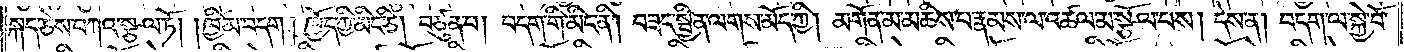སྐད་ཅེས་བཀའ་སྩལ་ཏོ། །ཁྱིམ་བདག། ཁྱོད་ཀྱི་མིང་ཅི། བཙུན་པ། བདག་གི་མིང་ནི། བཟང་སྦྱིན་ལགས་མོད་ཀྱི། མགོན་མ་མཆིས་པ་རྣམས་ལ་འཚལ་མ་སྩོལ་པས། དེས་ན། བདག་ལ་སྐྱེ་བོ་
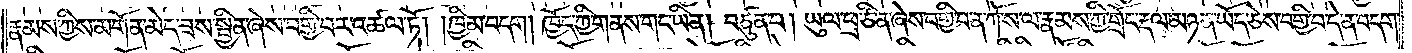རྣམས་ཀྱིས་མགོན་མེད་ཟས་སྦྱིན་ཞེས་བགྱི་བར་འཚལ་ཏོ། །ཁྱིམ་བདག། ཁྱོད་ཀྱི་གནས་གང་ཡིན། བཙུན་པ། ཡུལ་ཕྲ་ཙི་ན་ཞེས་བགྱི་བ་ན་ཀོ་ས་ལ་རྣམས་ཀྱི་གྲོང་རྡལ་མཉན་ཡོད་ཅེས་བགྱི་བ་དེ་ན་བདག་
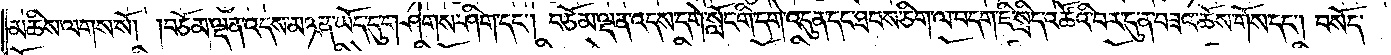མཆིས་ལགས་སོ། །བཅོམ་ལྡན་འདས་མཉན་ཡོད་དུ་གཤེགས་ཤིག་དང༌། བཅོམ་ལྡན་འདས་དགེ་སློང་གི་དགེ་འདུན་དང་ཐབས་ཅིག་ལ་བདག་ཇི་སྲིད་འཚོའི་བར་དུ་ན་བཟའ་ཆོས་གོས་དང༌། བསོད་
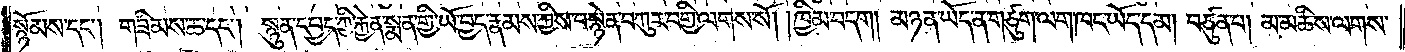སྙོམས་དང༌། གཟིམས་ཆ་དང༌། སྙུན་དཔྱད་ཀྱི་རྐྱེན་སྨན་གྱི་ཡོ་བྱད་རྣམས་ཀྱིས་བསྙེན་བཀུར་བགྱི་ལགས་སོ། །ཁྱིམ་བདག། མཉན་ཡོད་ན་གཙུག་ལག་ཁང་ཡོད་དམ། བཙུན་པ། མ་མཆིས་ལགས་
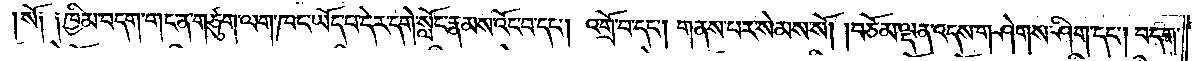སོ༑ ༑ཁྱིམ་བདག་གང་ན་གཙུག་ལག་ཁང་ཡོད་པ་དེར་དགེ་སློང་རྣམས་འོང་བ་དང༌། འགྲོ་བ་དང༌། གནས་པར་སེམས་སོ། །བཅོམ་ལྡན་འདས་གཤེགས་ཤིག་དང༌། བདག་
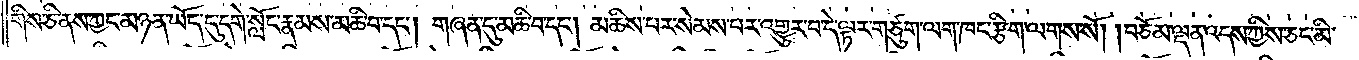གིས་ཅི་ནས་ཀྱང་མཉན་ཡོད་དུ་དགེ་སློང་རྣམས་མཆི་བ་དང༌། གཞན་དུ་མཆི་བ་དང༌། མཆིས་པར་སེམས་པར་འགྱུར་པ་དེ་ལྟར་གཙུག་ལག་ཁང་རྩིག་ལགས་སོ། །བཅོམ་ལྡན་འདས་ཀྱིས་ཅང་མི་
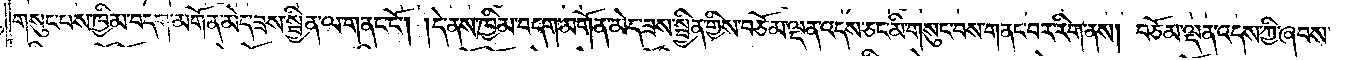གསུང་པས་ཁྱིམ་བདག་མགོན་མེད་ཟས་སྦྱིན་ལ་གནང་ངོ༌། །དེ་ནས་ཁྱིམ་བདག་མགོན་མེད་ཟས་སྦྱིན་གྱིས་བཅོམ་ལྡན་འདས་ཅང་མི་གསུང་བས་གནང་བར་རིག་ནས། བཅོམ་ལྡན་འདས་ཀྱི་ཞབས་
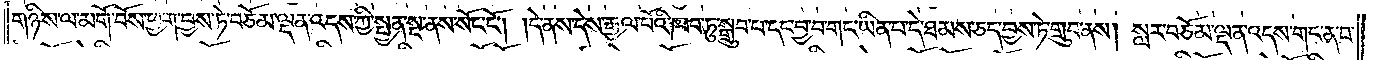གཉིས་ལ་མགོ་བོས་ཕྱག་བྱས་ཏེ་བཅོམ་ལྡན་འདས་ཀྱི་སྤྱན་སྔ་ནས་སོང་ངོ༌། །དེ་ནས་དེས་རྒྱལ་པོའི་ཁབ་ཏུ་སྒྲུབ་པ་དང་བྱ་བ་གང་ཡིན་པ་དེ་ཐམས་ཅད་བྱས་ཏེ་གྲུབ་ནས། སླར་བཅོམ་ལྡན་འདས་གང་ན་བ་
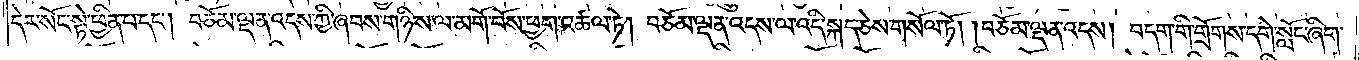དེར་སོང་སྟེ་ཕྱིན་པ་དང༌། བཅོམ་ལྡན་འདས་ཀྱི་ཞབས་གཉིས་ལ་མགོ་བོས་ཕྱག་འཚལ་ཏེ། བཅོམ་ལྡན་འདས་ལ་འདི་སྐད་ཅེས་གསོལ་ཏོ། བཅོམ་ལྡན་འདས། བདག་གི་གྲོགས་དགེ་སློང་ཞིག་
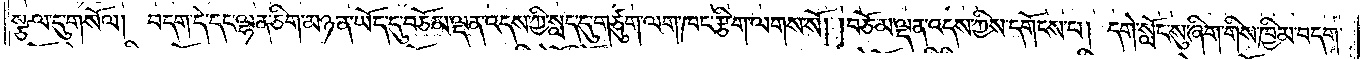སྩལ་དུ་གསོལ། བདག་དེ་དང་ལྷན་ཅིག་མཉན་ཡོད་དུ་བཅོམ་ལྡན་འདས་ཀྱི་སླད་དུ་གཙུག་ལག་ཁང་རྩིག་ལགས་སོ། །བཅོམ་ལྡན་འདས་ཀྱིས་དགོངས་པ། དགེ་སློང་སུ་ཞིག་གིས་ཁྱིམ་བདག་
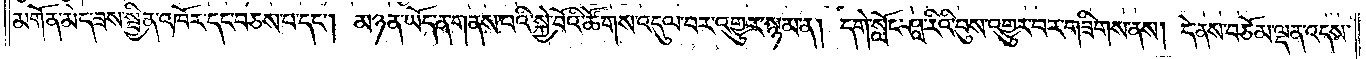མགོན་མེད་ཟས་སྦྱིན་འཁོར་དང་བཅས་པ་དང༌། མཉན་ཡོད་ན་གནས་པའི་སྐྱེ་བོའི་ཚོགས་འདུལ་བར་འགྱུར་སྙམ་ན། དགེ་སློང་ཤཱ་རིའི་བུས་འགྱུར་བར་གཟིགས་ནས། དེ་ནས་བཅོམ་ལྡན་འདས་
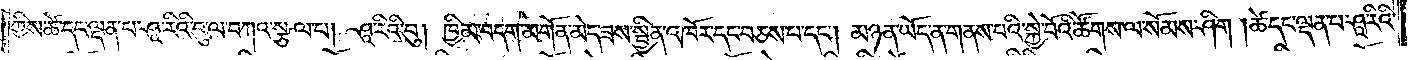ཀྱིས་ཚེ་དང་ལྡན་པ་ཤཱ་རིའི་བུ་ལ་བཀའ་སྩལ་པ། ཤཱ་རིའི་བུ། ཁྱིམ་བདག་མགོན་མེད་ཟས་སྦྱིན་འཁོར་དང་བཅས་པ་དང༌། མཉན་ཡོད་ན་གནས་པའི་སྐྱེ་བོའི་ཚོགས་ལ་སོམས་ཤིག །ཚེ་དང་ལྡན་པ་ཤཱ་རིའི་
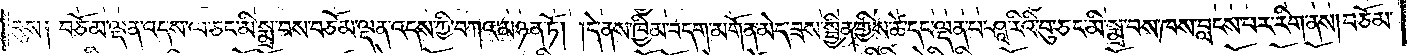བུས༑ བཅོམ་ལྡན་འདས་ལ་ཅང་མི་སྨྲ་བས་བཅོམ་ལྡན་འདས་ཀྱི་བཀའ་མཉན་ཏོ། །དེ་ནས་ཁྱིམ་བདག་མགོན་མེད་ཟས་སྦྱིན་གྱིས་ཚེ་དང་ལྡན་པ་ཤཱ་རིའི་བུ་ཅང་མི་སྨྲ་བས་ཁས་བླངས་པར་རིག་ནས། བཅོམ་
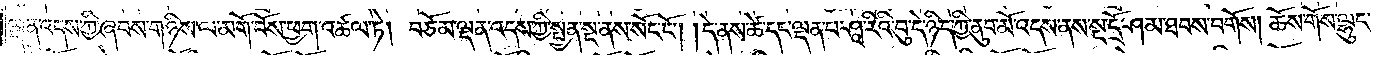ལྡན་འདས་ཀྱི་ཞབས་གཉིས་ལ་མགོ་བོས་ཕྱག་འཚལ་ཏེ། བཅོམ་ལྡན་འདས་ཀྱི་སྤྱན་སྔ་ནས་སོང་ངོ༌། །དེ་ནས་ཚེ་དང་ལྡན་པ་ཤཱ་རིའི་བུ་དེ་ཉིད་ཀྱི་ནུབ་མོ་འདས་ནས་སྔ་དྲོ་ཤམ་ཐབས་བགོས། ཆོས་གོས་ལྷུང་
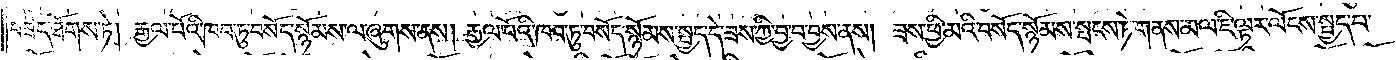བཟེད་ཐོགས་ཏེ། རྒྱལ་པོའི་ཁབ་ཏུ་བསོད་སྙོམས་ལ་ཞུགས་ནས། རྒྱལ་པོའི་ཁབ་ཏུ་བསོད་སྙོམས་སྤྱད་དེ་ཟས་ཀྱི་བྱ་བ་བྱས་ནས། ཟས་ཕྱི་མའི་བསོད་སྙོམས་སྤངས་ཏེ་གནས་མལ་ཇི་ལྟར་ལོངས་སྤྱད་པ་
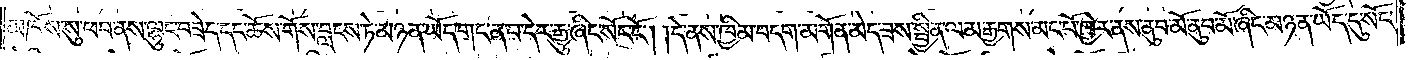མཁོས་སུ་ཕབ་ནས་ལྷུང་བཟེད་དང་ཆོས་གོས་བླངས་ཏེ་མཉན་ཡོད་གང་ན་པ་དེར་རྒྱུ་ཞིང་སོང་ངོ༌། །དེ་ནས་ཁྱིམ་བདག་མགོན་མེད་ཟས་སྦྱིན་ལམ་རྒྱགས་མང་པོ་ཁྱེར་ནས་ནུབ་མོ་ནུབ་མོ་ཞིང་མཉན་ཡོད་དུ་སོང་
